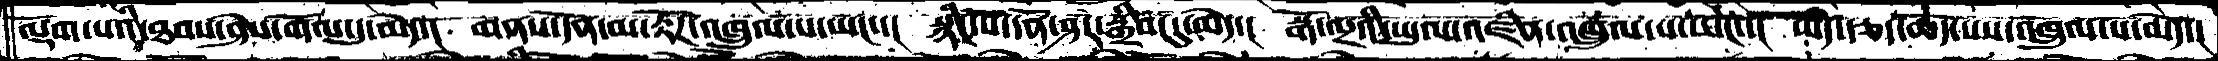ལྡོག་པའི་ཐབས་ཤེས་གོལ་དུ་མེད་།  གནས་དོན་མ་རྟོཌ་འཁྲུལ་པ་ཡང་་།  སྙིང་པོ་དོན་ཤར་སྒྲིབ་དུ་མེད་།  སྒོ་ལྔའི་ཡུལ་འཛིན་འཁྲུལ་པ་ཡང་་།  ཡིད་རྩད་ཆོད་པས་འཁྲུལ་པ་མེད་།
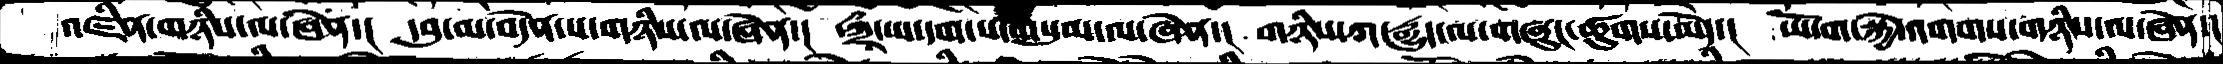འཛིན་གཉིས་ལ་ཞེན་།  དབུ་མ་བདེན་པ་གཉིས་ལ་ཞེན་།  ཀྲྀ་ཡ་དག་པ་གསུམ་ལ་ཞེན་།  གཉིས་ཀ་རྒྱུད་ལ་གཞུང་ཚུགས་མེད་།  ཡོ་ག་སྐྱེ་འགགས་གཉིས་ལ་ཞེན་།
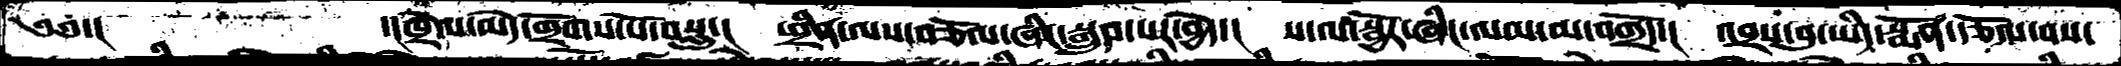༄༅་།        ་།ཁྲེལ་མེད་གྲོགས་པོ་བསླུ་།  ཕྲིན་ལས་བཅོལ་ཞིང་སྒྲུབ་པར་བྱེད་།  ས་ལ་སྦྱོར་ཞིང་ལམ་ལ་བགྲོད་།  འབྲས་བུ་ཡིད་སྨོན་རྩོལ་བས་
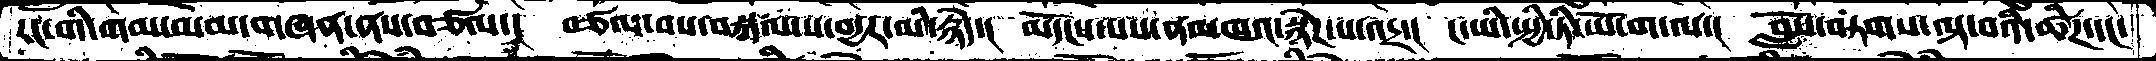རང་གི་གམ་མམ་གཞན་ནས་བཙལ་།  བཙལ་བས་བསྐལ་པ་བདྱར་མི་རྙེད་།  མདོངས་པས་ནམཁའ་སྙེཌ་པ་འདྲ་།  ང་ཡི་སྤྱི་ཏི་ཡོ་ག་ལ་།  བློས་བཏགས་ལྟ་བའི་ཚིཌ་དང་
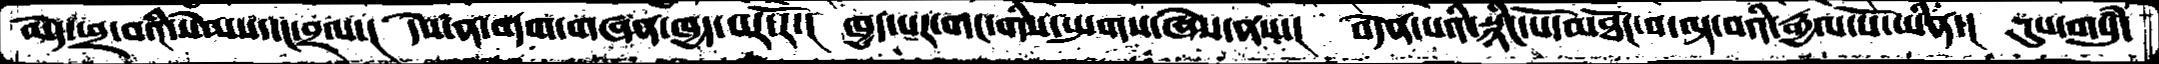མེད་ཕྲ་བའི་སེམས་དང་བྲལ་།  དེས་ན་བདག་གཞན་ཁྱད་པར་རོ་།  ཁྱད་པར་གང་གིས་སྤགས་ཞེས་ནས་།  བདེན་པའི་སྙིང་པོ་མཐོང་བ་ལྟ་བའི་རྒྱལ་པོ་ཡིན་།  དུས་གསུཾ་
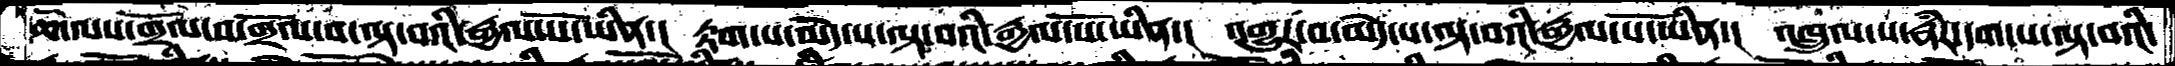ཆོ་ལས་གྲོལ་བ་གྲོལ་བ་ལྟ་བའི་རྒྱལ་པོ་ཡིན་།  རྟག་པ་མེད་པ་ལྟ་བའི་རྒྱལ་པོ་ཡིན་།  འགྱུར་བ་མེད་པ་ལྟ་བའི་རྒྱལ་པོ་ཡིན་།  འཁྲུལ་པ་རྣཾར་དག་པ་ལྟ་བའི་
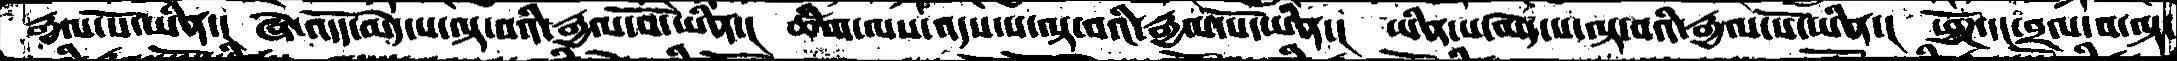རྒྱལ་པོ་ཡིན་།  ཞེ་འདོད་མེད་པ་ལྟ་བའི་རྒྱལ་བོ་ཡིན་།  ཚིག་ལས་འདས་པ་ལྟ་བའི་རྒྱལ་པོ་ཡིན་།  ཡིན་པ་མེད་པ་ལྟ་བའི་རྒྱལ་པོ་ཡིན་།  ཕྱོཌ་དང་བྲལ་བ་ལྟ་
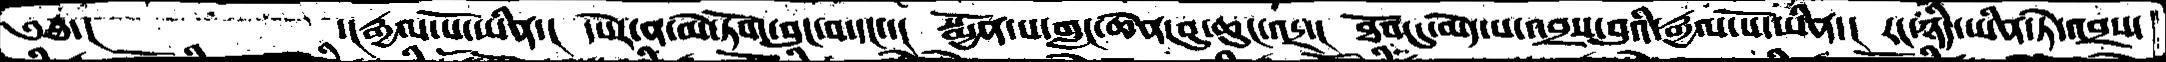༄༅་།        ་།རྒྱལ་པོ་ཡིན་།   དཔེར་ན་མེ་ཏོག་བུང་བ་དང་་།  སྨྱོན་པ་གླང་ཆེན་བུ་ཆུང་འདྲ་།  ཐོབ་དུ་མེད་པ་འབྲས་བུའི་རྒྱལ་པོ་ཡིན་།  རང་ཉིད་ཡིན་ཏེ་འབྲས་
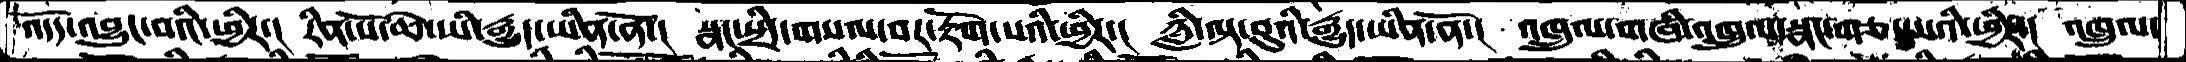འདོད་འབྱུང་བའི་ཕྱིར་།   རིན་པོ་ཆེ་ཡི་རྒྱུད་ཡིན་ནོ་།  སྣང་སྲིད་གསལ་བར་རྟོག་པའི་ཕྱིར་།  ཉླི་ལྟ་བུའི་རྒྱུད་ཡིན་ནོ་།  འཁྲུལ་གཞི་འཁྲུལ་སྣང་གཅད་པའི་ཕྱིར་།  འཁྲུལ་
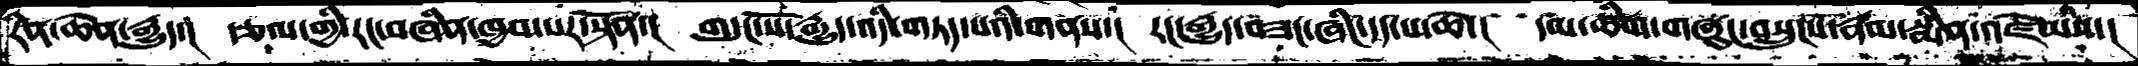རིན་ཆེན་རྒྱུད་།  རྩལ་གྱི་རང་བཞིན་ཁྱབ་པར་སྟོན་།  གདུང་པོ་རྒྱུད་འདི་གཏད་པའི་གནས་།  རང་རྒྱུད་བཟང་ཞིང་དད་པ་ཆེ་།  དམ་ཚིག་གཞུང་བསྲུང་རྣམ་སྨིན་འཛེམས་།
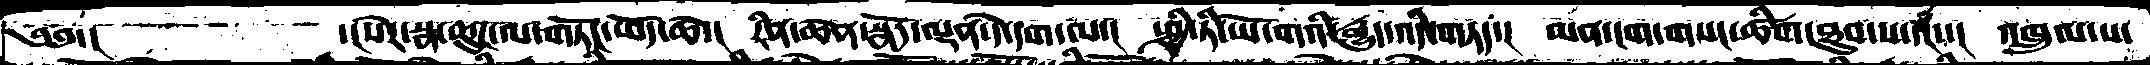༄༅་།       ་།སེར་སྣ་ཆུང་ལ་གཏོང་ཕོད་ཆེ་།  རིན་ཆེན་སྣོད་ལྡན་དེ་དག་ལ་།  སྤྱི་ཏི་ཡོ་གའི་རྒྱུད་འདི་གཏད་།  མན་ངག་གསང་ཚིག་ཐུབ་པ་དང་་།  འཁྲུལ་པ་
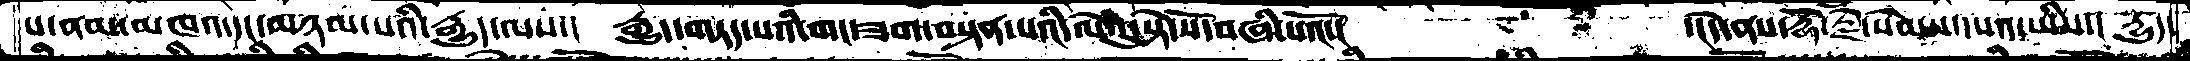པ་ནམ་མཁའ་དང་མཉམ་པའི་རྒྱུད་ལས་།  རྒྱུད་གཏད་པའི་གང་ཟག་བསྟན་པའི་ལེའུ་སྟེ་སོ་བཞི་པའོ་།         ་།དེ་ནས་རྡོ་རྗེ་སེམས་དཔའ་ཡིས་།  དྱུད་
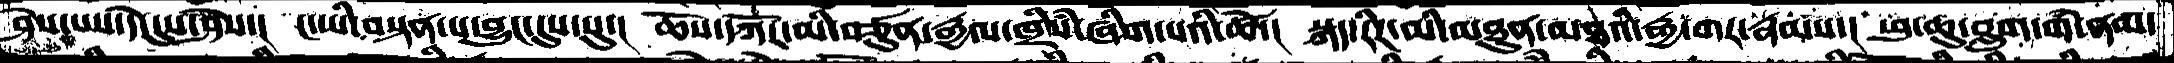ཤེས་པས་དེ་དུས་ཤེས་།  ང་ཡི་བསྟན་པ་འབྱུང་དུས་སུ་།  ཆོས་དཀོར་མི་བཙུན་རྒྱལ་ཁྲིཾས་ཞིག་པའི་ཚེ་།  སྐད་རིཌ་མི་མཐུན་མཐའི་རྒྱ་གར་རྣམས་།  ཕུ་ཆུ་བླུག་གི་་ནམ་
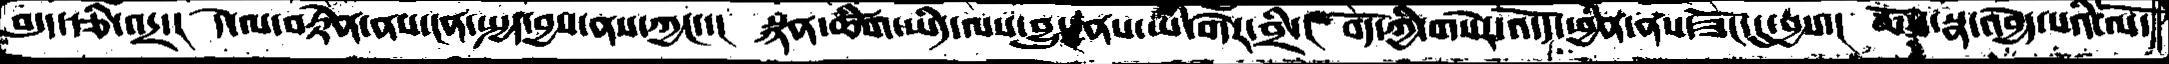བདུད་རྩི་འདྲ་།  དེ་ལ་བརྟེན་ནས་ངན་སྤྱད་བྱས་ནས་ཀྱང་་།  སྙན་ཚིག་ཡིད་ལས་བྱུང་ནས་ཡི་གེར་བྲི་།  བོད་ཀྱི་གསེར་འདོད་ཕྱིན་ནས་ཟོང་དུ་བྱས་།  ཆོས་སྣ་འབྱེད་པའི་ལོ་
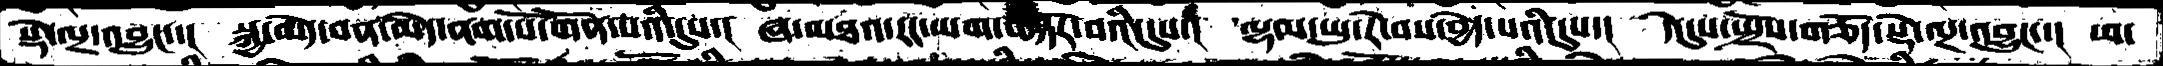སྡེ་ལྔ་འབྱུང་་།  སྐྱ་མེད་བན་མེད་ནག་པོ་གོན་པའི་དུས་།  ཞ་མཐའ་རང་ཡག་བསྐོར་བའི་དུས་།  ལྷམ་ཡུ་རེ་བས་བྱེད་པའི་དུས་།  དེ་དུས་སྤྲོས་གཅོད་སྡེ་ལྔ་འབྱུང་།  ཕ་
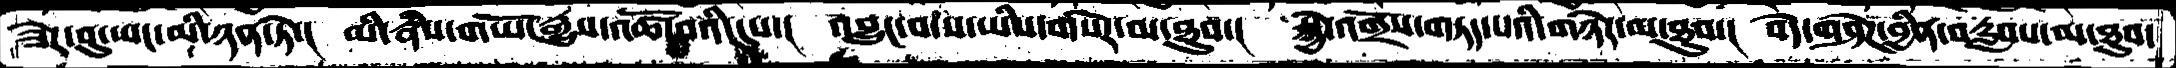ཟེར་བུ་ཡང་མི་ཉན་ཏེ་།  མི་རྣཾས་གཡོ་རྒྱུས་འཚོ་བའི་དུས་།  འབྱུང་བ་ས་ཡིས་གསེར་མ་ཐུབ་།  སྐྱེ་འགྲོས་གཏད་པའི་གཉེར་མ་ཐུབ་།  བདེ་གཤེཌ་བྱིན་བརླབས་མ་ཐུབ་
